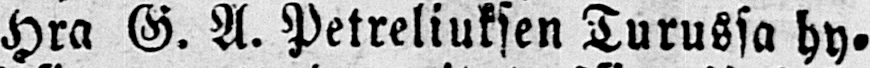Hra G. A. Petreliuksen Turussa hy-
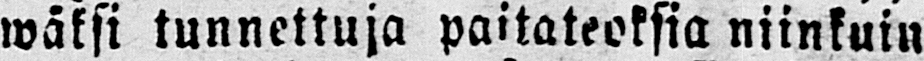wäksi tunnettuja paitateoksia niinkuin
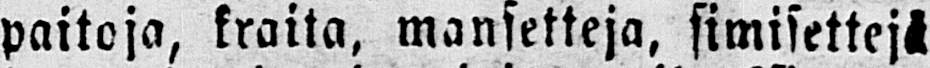paitoja, kraita, mansetteja, simisettejä
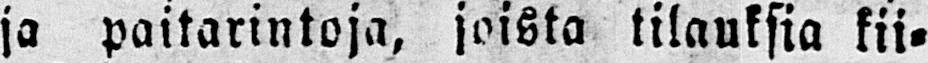ja paitarintoja, joista tilauksia kii-
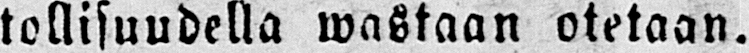tollisuudella wastaan otetaan.
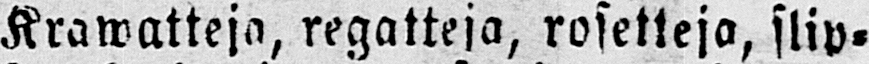Krawatteja, regatteja, rosetteja, slip-
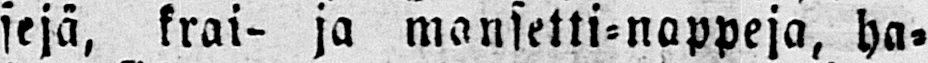sejä, krai- ja mansetti-nappeja, ha-
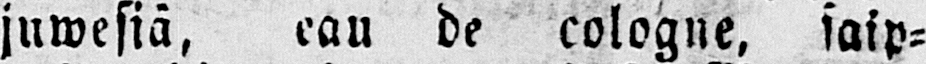juwesiä, eau de cologne, saip-
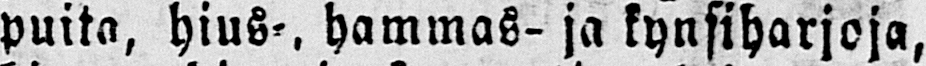puita, hius-, hammas- ja kynsiharjoja,
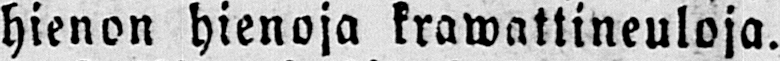hienon hienoja krawattineuloja.
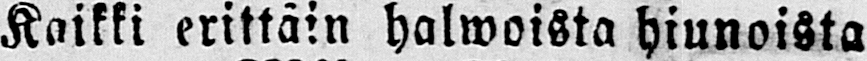Kaikki erittäin halwoista hiunoista
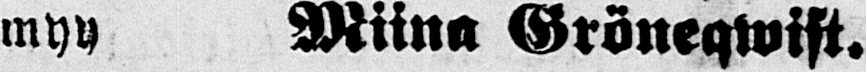myy Miina Gröneqwist.
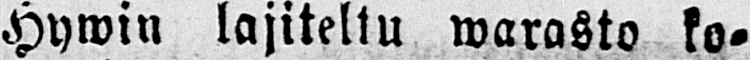Hywin lajiteltu warasto ko-
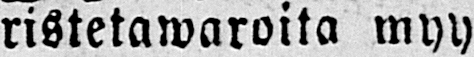ristetawaroita myy
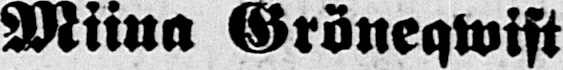Miina Gröneqwist.
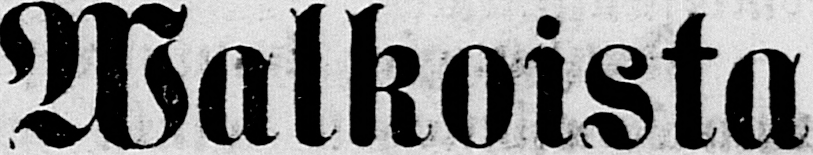Walkoista
